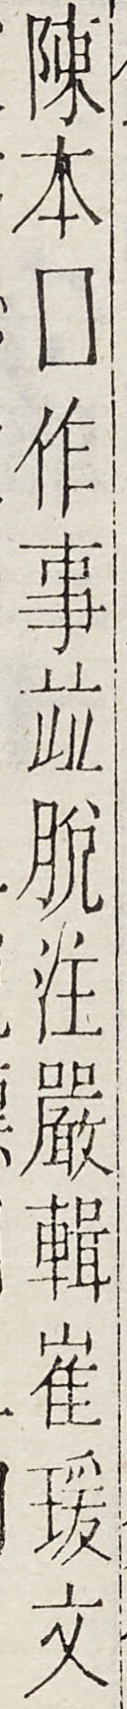陳本□作事並脫注嚴輯崔瑗文
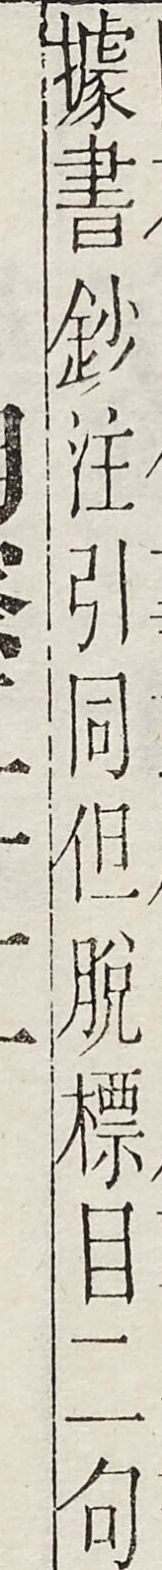據書鈔注引同但脫標目二句
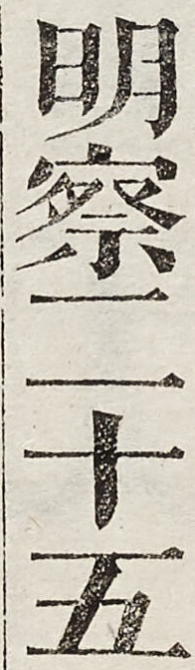明察二十五
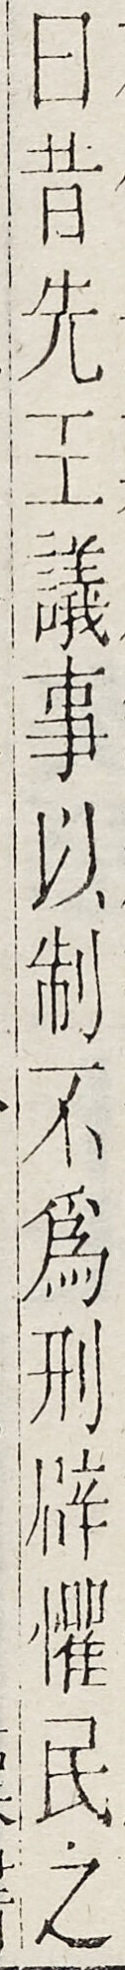曰昔先王議事以制不為刑闢懼民之
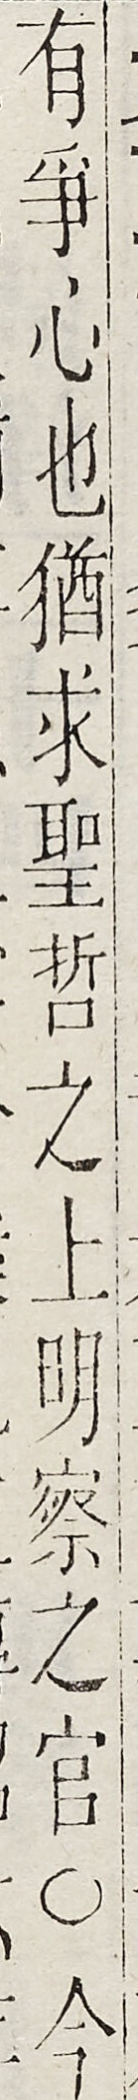有爭心也猶求聖哲之上明察之官○今
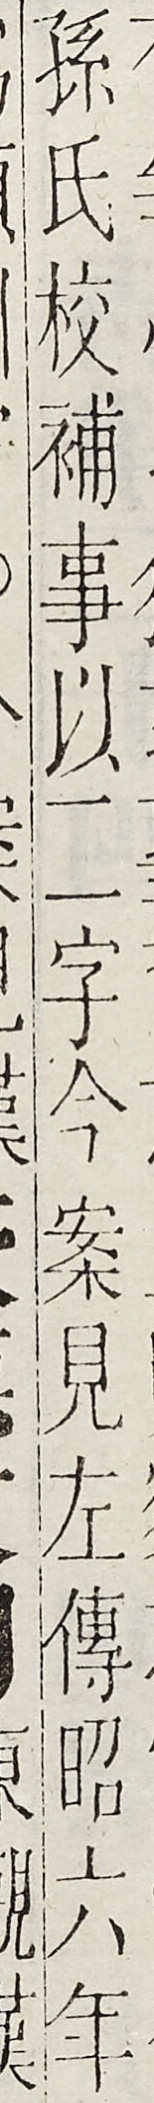孫氏校補事以二字今案見左傳昭六年
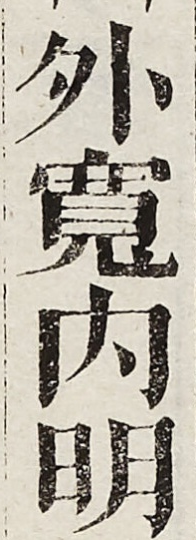外寬內明
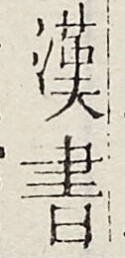漢書
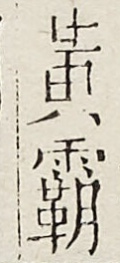黃霸
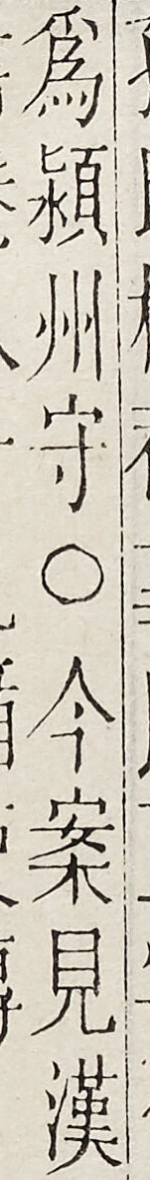為潁州守○今案見漢
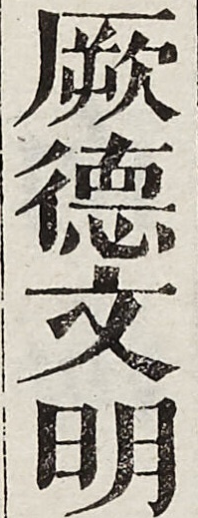厥德文明
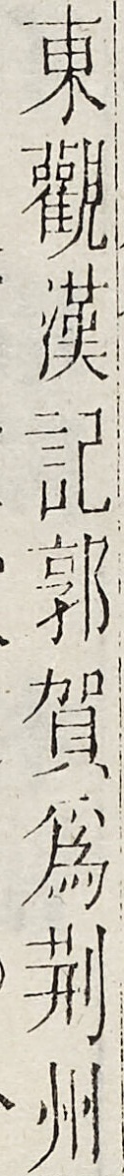東觀漢記郭賀為荊州
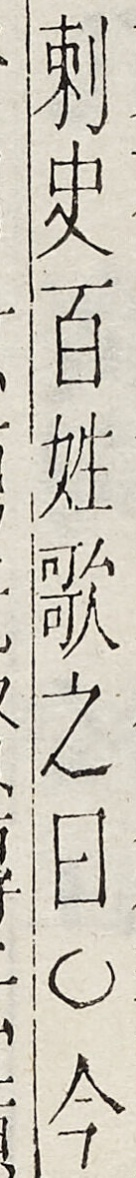剌史百姓歌之曰○今
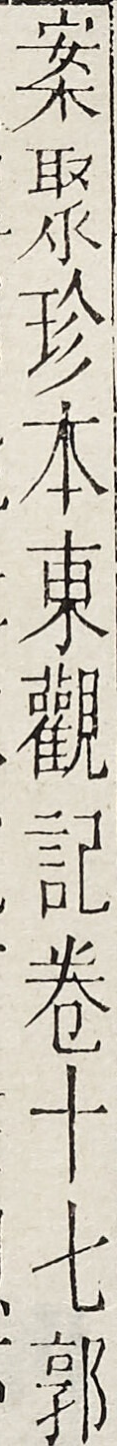案聚珍本東觀記卷十七郭
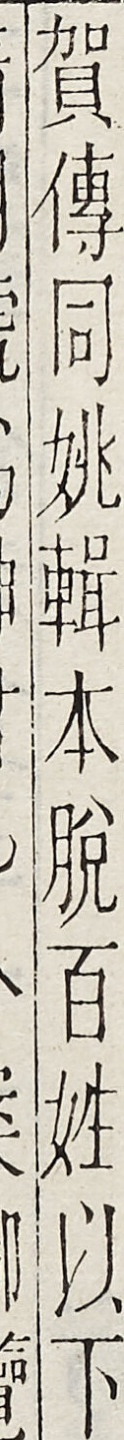賀傳同姚輯本脫百姓以下
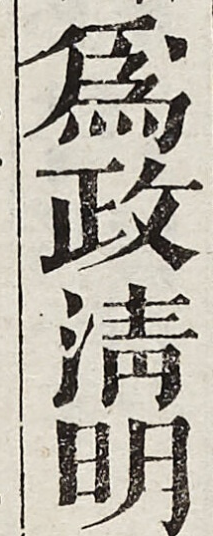為政清明
